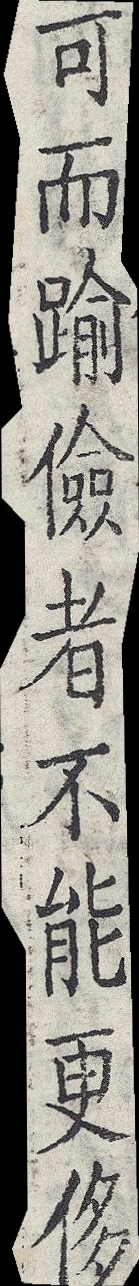可而踰儉者不能更侈
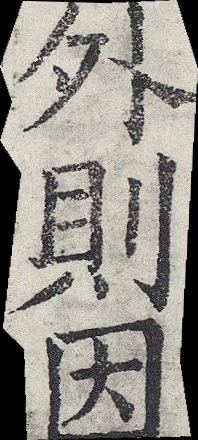外則因
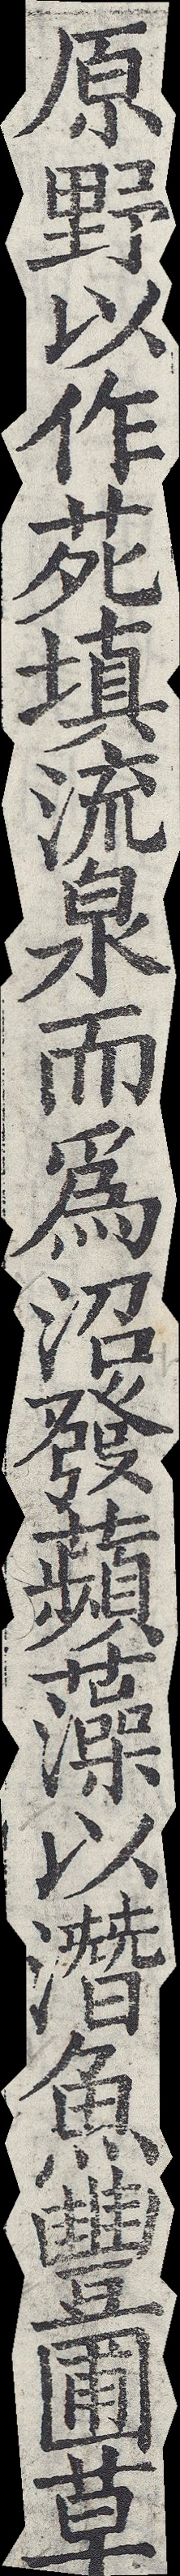原野以作苑填流泉而為沼發蘋藻以潛魚豐圃草
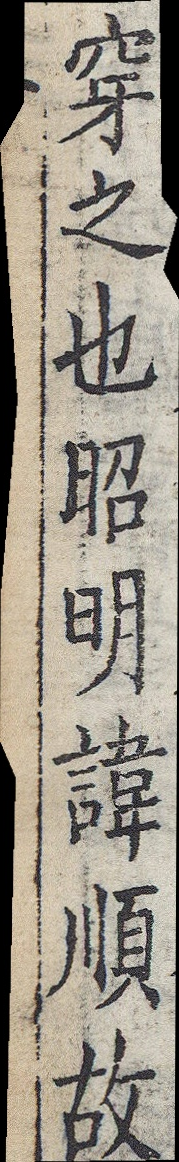穿之也昭明諱順故
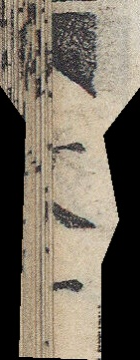文一
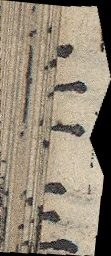二十三
